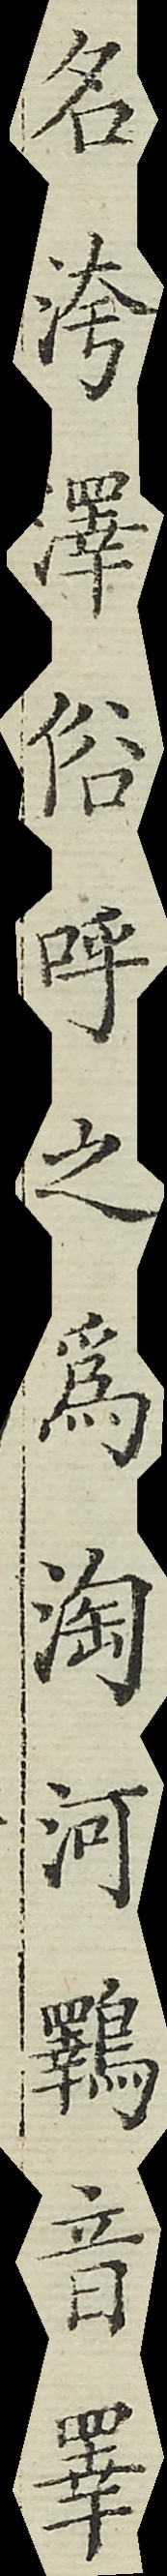名洿澤俗呼之為淘河鸅音澤
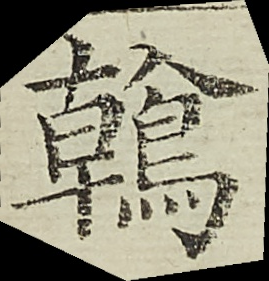鶾
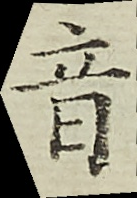音
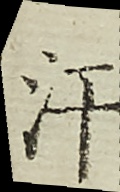汗
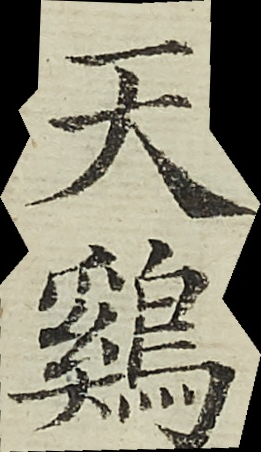天雞
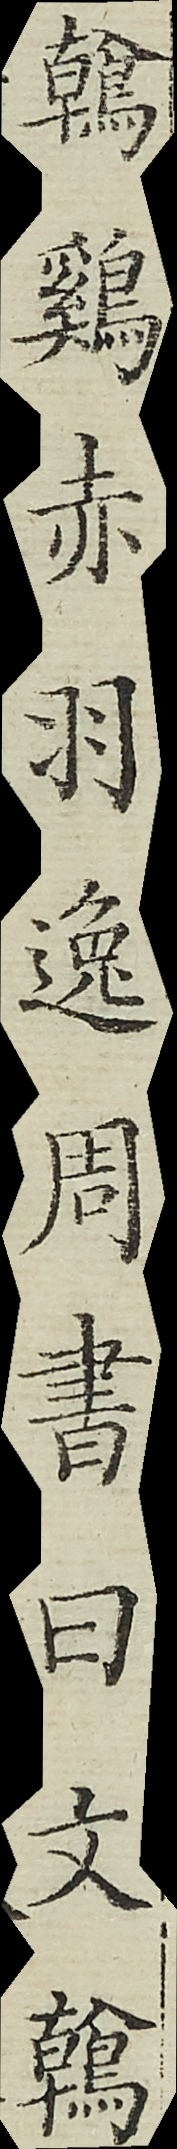鶾雞赤羽逸周書曰文鶾
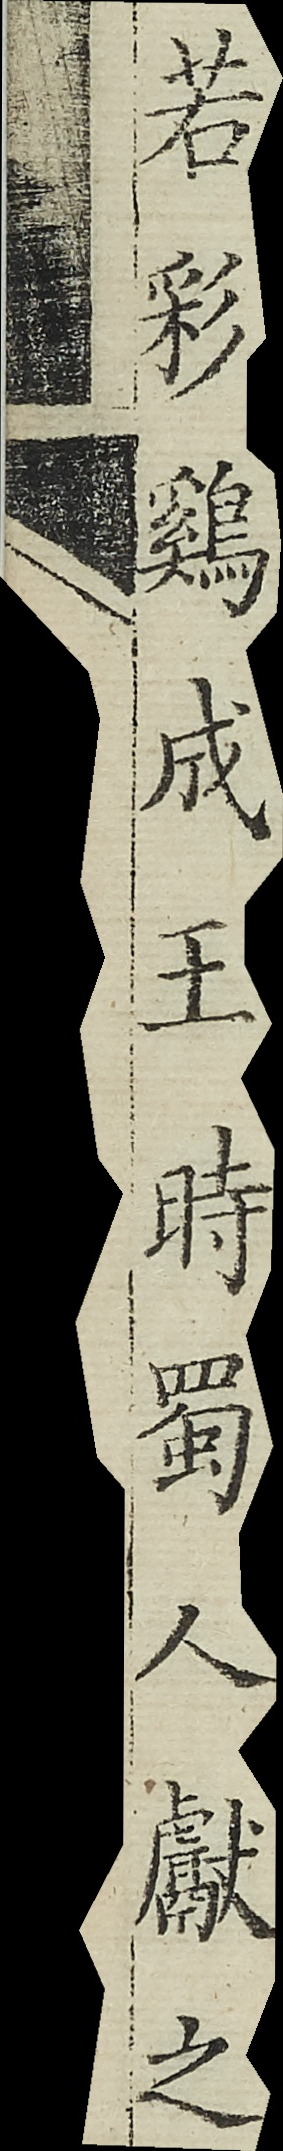若彩雞成王時蜀人獻之
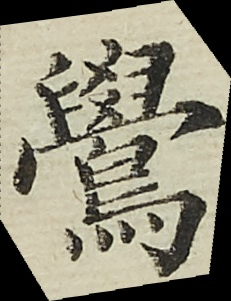鴬
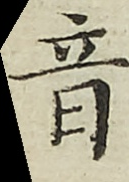音
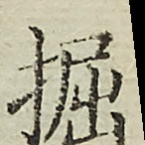掘
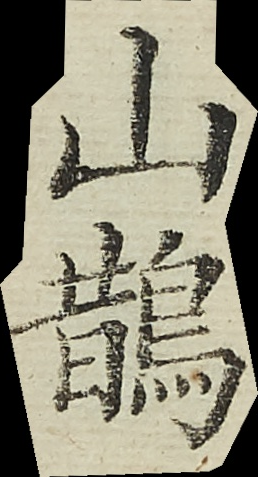山鵲
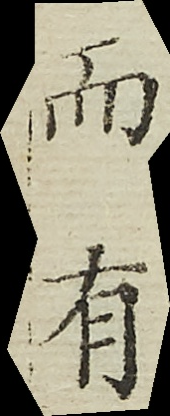而有
